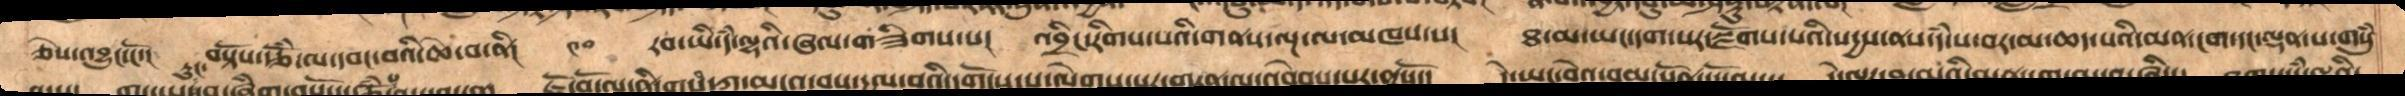ཅེས་འབྱུང་ངོ་།  བསྟོས་རྩོཾ་ལ་དབང་བའི་ཆེ་བ་ནི། ༤༠ རབ་ཡི་དཾ་ལྷའི་ཞལ་གཟིགས་པ།  འབྲིང་རིགས་པའི་གནས་ལྔ་ལ་མཁས་པ།  ཐ་མ་ཡང་དག་པར་སྫོགས་པའི་སདྱས་ནས་དཾ་པ་བར་མ་ཆད་པའི་མན་ངག་དང་ལྡན་པ་གསུཾ
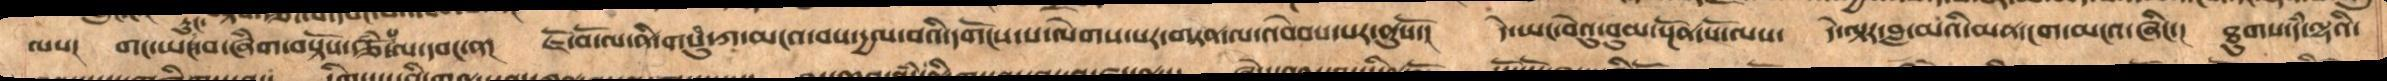ལས། གང་ཡང་རུང་བ་ཞིགབསྟོས་རྩོཾ་ལ་དབང་ན།  ཇོ་བོ་ལ་ནི་གསུཾ་ཀ་མངའ་བས་རྒྱལ་བའི་དགོངས་པ་ལེགས་པར་གཏན་ལ་འབེབས་པར་ནུསོ།  དེ་ཡང་་བེའུ་བུམ་སྔོན་པོ་ལས་ དེ་ལྟར་བླ་མའི་མན་ངག་མངའ་ཞིང་། ཐུགས་དཾ་ལྷའི་
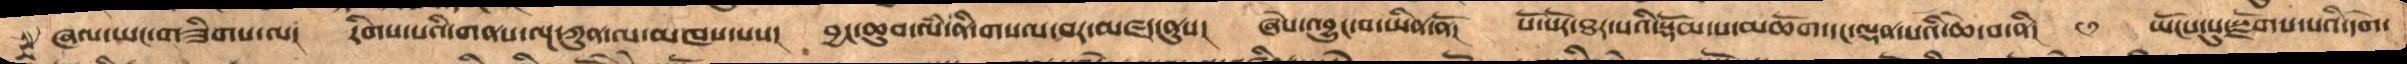ཞལ་ཡང་གཟིགས་ལ། རིགས་པའི་གནས་ལྔ་ཀུན་ལ་མཁས་པས། བྱང་ཆུབ་ལཾ་ནི་གསལ་བར་མཛད་ནུས། ཞེས་འབྱུང་བ་ཡིན་ནོ། སོ་སོ་ཐར་པའི་སྡོམ་པ་མཆོག་དང་ལྡན་པའི་ཆེ་བ་ནི།༤༡ ཡོངས་སུ་སྫོགས་པའི་དགེ་
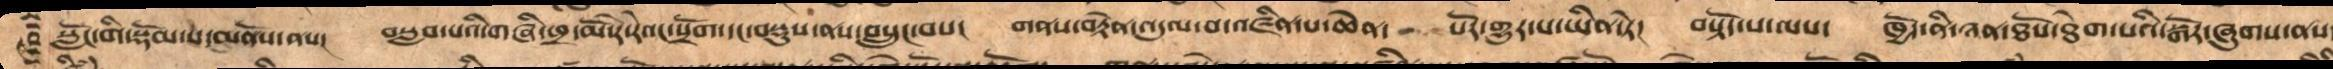སློང་གི་སྡོམ་པ་མནོས་ནས། བསླབ་པའི་གཞི་ཕྲ་མོ་རེ་རེའང་སྲོག་དང་བསྡུས་ནས་བསྲུང་བས། གནས་བརྟེན་འདུལ་བ་འཛིན་པ་ཆེན་  པོར་གྱུར་པ་ཡིན་ཏེ།  བསྟོད་པ་ལས་  ཁྱོད་ནི་ཉན་ཐོས་ཐེག་པའི་སྒོར་ཞུགས་ནས
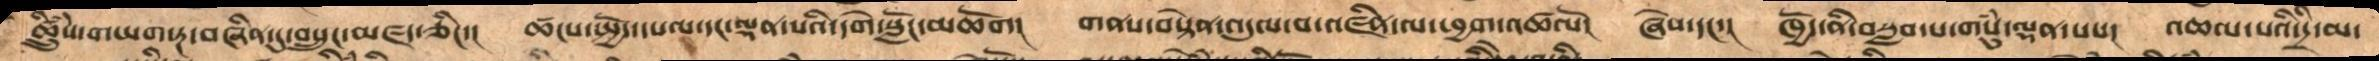ཚྲིུཾས་གཡག་རྔ་བཞིན་དུ་བསྲུང་མཛད་ཅིང་།   ཚངས་སྤྱོད་དཔལ་དང་ལྡན་པའི་དགེ་སློང་མཆོག   གནས་བསྟེན་འདུལ་བ་འཛིན་ལ་ཕྱག་འཚལོ།   ཞེས་དང་།  ཁྱོད་ནི་བསླབ་པ་གསུཾ་ལྡན་པས།  འཆལ་པའི་དྲི་མ་
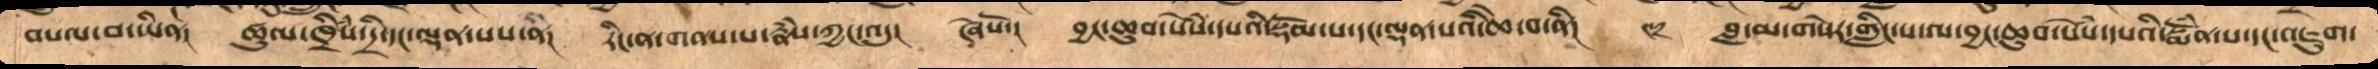བསལ་བ་ཡིན།  ཚུལ་ཁྲིཾས་དྲི་དང་ལྡན་པས་ནི།   རིང་ན་གནས་པ་རྣཾས་ཀྱང་འདུ།  ཞེསོ་།།  བྱང་ཆུབ་སེཾས་དཔའི་སྡོམ་པ་དང་ལྡན་པའི་ཆེ་བ་ནི།  ༤༡  བླ་མ་གསེར་གླིང་པ་ལ་བྱང་ཆུབ་སེཾས་དཔའི་སྨོཾན་པ་དང་འཇུག་
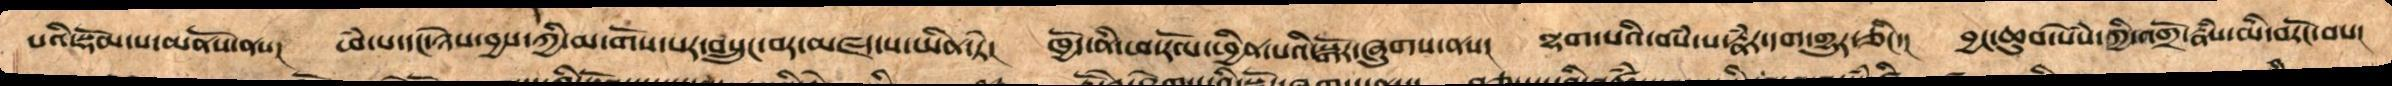པའི་སྡོམ་པ་མནོས་ནས།   ཕཾ་པ་དང་ཉེས་བྱས་ཀྱི་མ་གོས་པར་བསྲུང་བར་མཛད་པ་ཡིན་ཏེ།   ཁྱོད་ནི་ཕ་རོལ་ཕྱིན་པའི་སྒོར་ཞུགས་ནས།  ལྷག་པའི་བསཾ་པ་རྣཾར་དག་གྱུར་ཅིང་།   བྱང་ཆུབ་སེམས་ཀྱི་འགྲོ་རྣཾས་མི་གཏོང་བས།
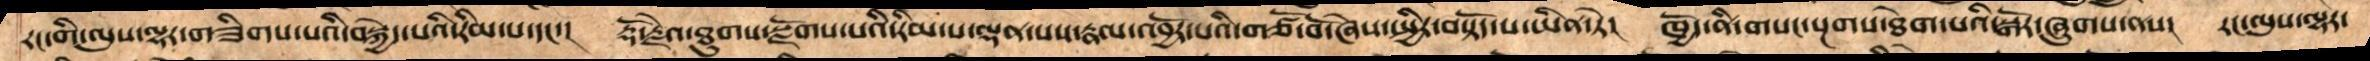རང་གི་ལུས་ལྷར་གཟིགས་པའི་བསྐྱེད་པའི་རིམ་པ་དང་།    རྡོ་རྗེའ་ཐུགས་སྫོགས་པའི་རིམ་པ་ལྡན་པས་རྣལ་འབྱོར་པའི་གཙོ་བོ་ཞེས་སྤྱིར་བསྟོད་པ་ཡིན་ཏེ།    ཁྱོད་ནི་གསང་སྔགས་ཐེག་པའི་སྒོར་ཞུགས་ནས།  རང་ལུས་ལྷར་
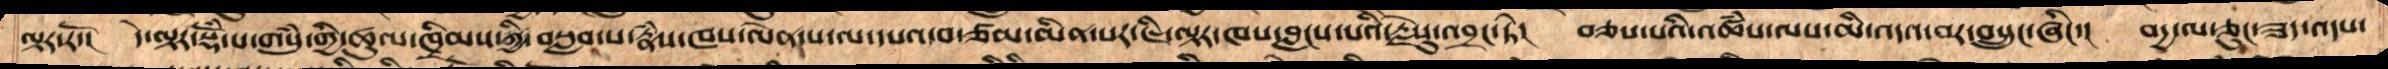ལྟར་རོ།   དེ་ལྟར་སྡོཾ་པ་གསུཾ་གྱི་ཚུལ་ཁྲིམས་ཀྱི་བསླབ་པ་རྣཾས་ཁས་ལེན་པ་ལ་དཔའ་བ་ཙམ་མིན་པར་ཇི་ལྟར་ཁས་བླངས་པའི་རྗེསུ་འབྲང་ཏེ།   བཅས་པའི་འཚཾས་ལས་མི་འདའ་བར་བསྲུང་ཞིང་།  བདྱ་ལ་ཅུང་ཟད་འདས་
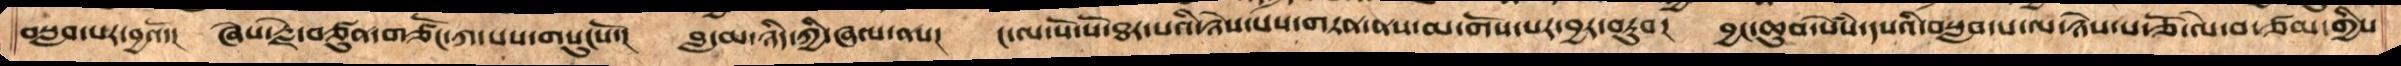བསླབ་པར་བྱའོ་།   ཞེས་རྗེ་བཙུན་གཙོང་ཀ་པས་གསུངསོ་།    བླ་མ་ཉིད་ཀྱི་ཞལ་ནས།   ང་ལ་སོ་སོ་ཐར་པའི་ཉེས་པས་གཏན་ནས་མ་གོས་པར་བྱར་བཏུབ།   བྱང་ཆུབ་སེཾས་དཔའི་བསླབ་པ་ལ་ཉེས་པ་ཅོ་ལེ་བ་ཙམ་གྱིས
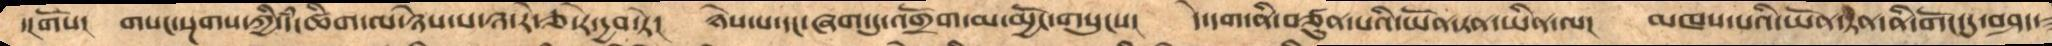་།གོས།  གསང་སྔགས་ཀྱི་དཾ་ཚིག་ལ་ཉེས་པ་ཉ་རེ་ཅ་རེ་དྱབ་ཏེ།  ཉེས་པ་དང་ཞག་དུ་འགྲོག་མ་མྱོང་གསུངས།   དེ་དག་ནི་བཙུན་པའི་ཡོན་ཏན་ཡིན་ལ།  མཁས་པའིཡོན་ཏན་ནི་གོང་དུ་བཤད་
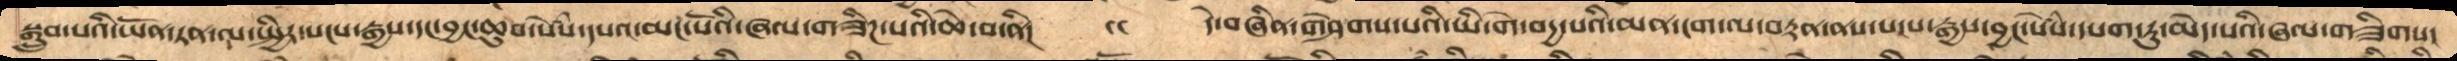སྒྲུབ་པའི་ཡོན་ཏན་ལ་སྤྱིར་སངས་རྒྱས་དང་བྱང་ཆུབ་སེཾས་དཔའ་མང་པོའི་ཞལ་གཟིཌ་པའི་ཆེ་བ་ནི།  ༩༩  དེ་བཞིན་གཤེགས་པའི་ཡི་གེ་བདྱ་པའི་མན་ངག་ལ་བརྟན་ནས་སངས་རྒྱས་བྱང་སེཾས་དཔག་ཏུ་མེད་པའི་ཞལ་གཟིགས།
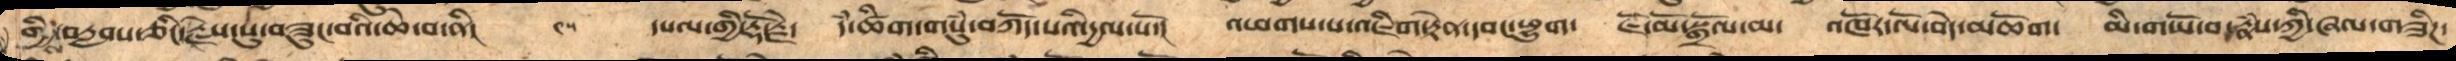གྱིས་བརླབས་ཅིང་རྗེས་སུ་གཟུང་བའི་ཆེ་བ་ནི།   ༤༥  དཔལ་ཀྱི་རྡོ་རྗེ།   དཾ་ཚིག་གསུཾ་བཀོད་པའི་དྱལ་པོ།   འཕགས་པ་འཇིག་རྟེན་དབང་ཕྱུག་   ཇོ་མོ་སྒྲོལ་མ་  འཁོར་ལོ་བདེ་མཆོག་   མི་གཡོ་བ་རྣཾས་ཀྱི་ཞལ་གཟིཌ་
